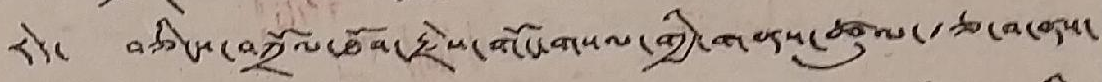རེད་ བཅིངས་བཀྲོལ་ཐོབ་རྗེས་གོང་གསལ་གྱི་གནས་ཚུལ་རྩ་བ་ནས་
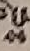ས
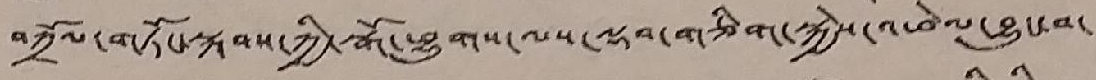བཀྲོལ་གཏོང་སྐབས་ཀྱི་སྒོ་ཕྱུགས་ལས་ལྡབ་གཅིག་སྐྱེས་འཕེལ་བྱུང་བ་
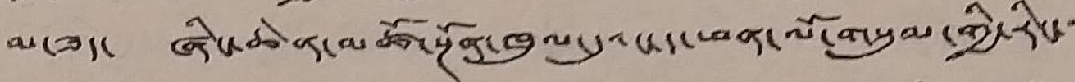མ་ཟད་ ཞིང་ཆེན་མཚོ་སྔོན་ཁུལ་དུའང་ད་ཕན་ལོ་གསུམ་གྱི་རིང་་་
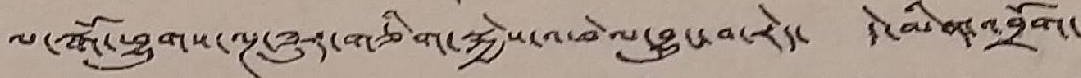ལ་སྒོ་ཕྱུགས་ལྔ་ཟུར་གཅིག་སྐྱེས་འཕེལ་བྱུང་བ་རེད་ དེ་མིན་འབྲོག་
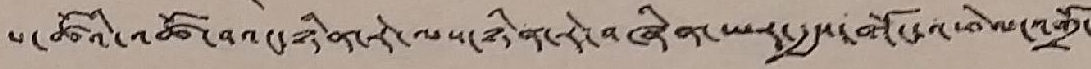པ་ཚོའི་འཚོ་བའང་ཉིན་རེ་ལས་ཉིན་རེ་བཞིན་ཡར་རྒྱས་གོང་འཕེལ་འགྲོ་
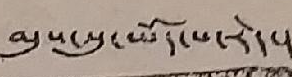མུས་སུ་ཡོད་པ་རེད་།
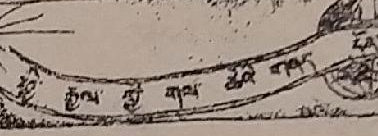ཕྱི་རྒྱལ་གྱི་གལ་ཆེའི་གནད་དོན་
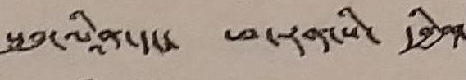• སུའུ་ལཱིན་དང་ ཕ་རན་སི་ དབྱིན་
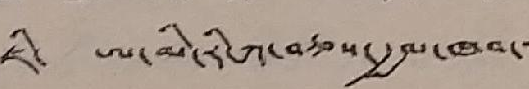ཇི་ ཨ་མི་རི་ཀ་བཅས་རྒྱལ་ཁབ་
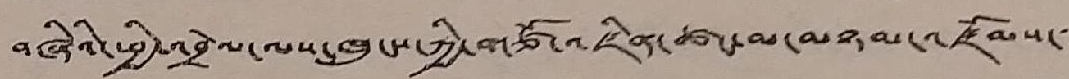བཞིའི་ཕྱི་འབྲེལ་ལས་ཁུངས་ཀྱི་གཙོ་འཛིན་ཚང་མ་མཉམ་འཛོམས་་་
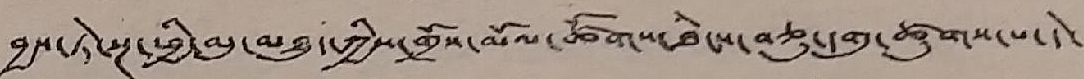བྱས་ཏེ་སྔ་ཕྱི་མུ་མཐུད་ཀྱིས་གྲོས་མོལ་ཚོགས་ཐེངས་བཅུ་དགུ་ཚུགས་པ་དེ་
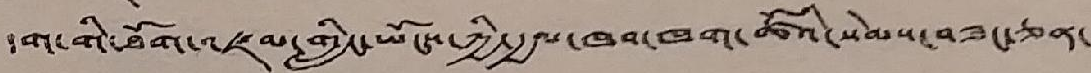དག་གི་ཐོག་འཛམ་གླིང་ཡོངས་ཀྱི་རྒྱལ་ཁབ་ཁག་ཚོའི་སེམས་བཟང་ཅན་
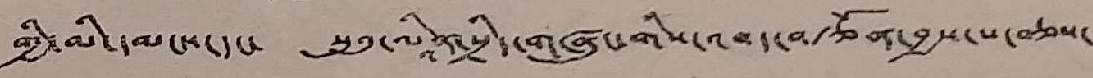གྱི་མི་དམངས་དང་ སུའུ་ལཱིན་སྲིད་གཞུང་གིས་འབད་བརྩོན་བྱས་པ་བཅས་
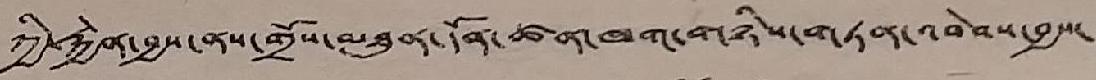ཀྱི་རྐྱེན་བྱས་ནས་གྲོས་མཐུན་དོན་ཚན་ཁག་གཉིས་གཏན་འབེབས་བྱས་
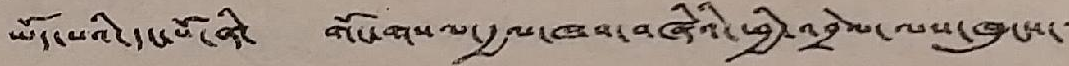ཡོད་པའི་དང་པོ་ནི་ གོང་གསལ་རྒྱལ་ཁབ་བཞིའི་ཕྱི་འབྲེལ་ལས་ཁུངས་་་
